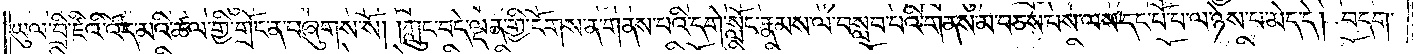ཡུལ་བྲི་ཛིའི་འོད་མའི་ཚལ་གྱི་གྲོང་ན་བཞུགས་སོ། །ཀླུང་བདེ་ལྡན་གྱི་ངོགས་ན་གནས་པའི་དགེ་སློང་རྣམས་ལ་བསླབ་པའི་གནས་མ་བཅས་པས་ལས་དང་པོ་པ་ལ་ཉེས་པ་མེད་དེ། བདག་
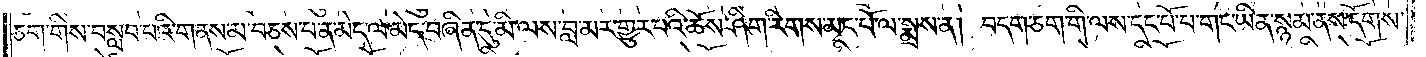ཅག་གིས་བསླབ་པའི་གནས་མ་བཅས་པ་ན་མེད་ལ་མེད་བཞིན་དུ་མི་ལས་བླ་མར་གྱུར་པའི་ཆོས་ཤིག་རིགས་མང་པོ་ལ་སྨྲས་ན། བདག་ཅག་གི་ལས་དང་པོ་པ་གང་ཡིན་སྙམ་ནས་དོགས་
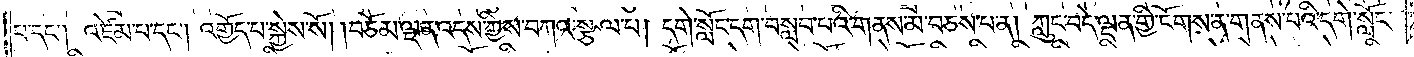པ་དང༌། འཛེམ་པ་དང༌། འགྱོད་པ་སྐྱེས་སོ། །བཅོམ་ལྡན་འདས་ཀྱིས་བཀའ་སྩལ་པ། དགེ་སློང་དག་བསླབ་པའི་གནས་མ་བཅས་པ་ན། ཀླུང་བདེ་ལྡན་གྱི་ངོགས་ན་གནས་པའི་དགེ་སློང་
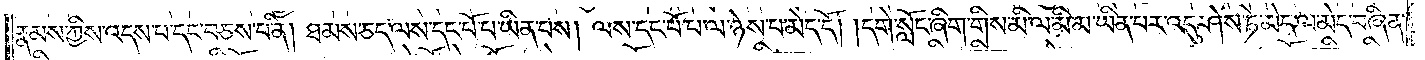རྣམས་ཀྱིས་འདས་པ་དང་བཅས་པ་ནི། ཐམས་ཅད་ལས་དང་པོ་པ་ཡིན་པས། ལས་དང་པོ་པ་ལ་ཉེས་པ་མེད་དོ། །དགེ་སློང་ཞིག་གིས་མི་ལ་མི་མ་ཡིན་པར་འདུ་ཤེས་ཏེ་མེད་ལ་མེད་བཞིན་
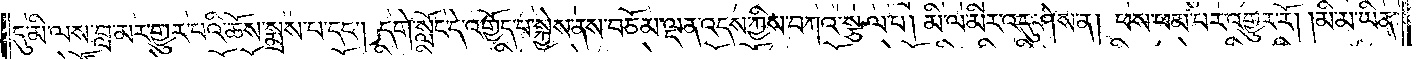དུ་མི་ལས་བླ་མར་གྱུར་པའི་ཆོས་སྨྲས་པ་དང༌། དགེ་སློང་དེ་འགྱོད་པ་སྐྱེས་ནས་བཅོམ་ལྡན་འདས་ཀྱིས་བཀའ་སྩལ་པ། མི་ལ་མིར་འདུ་ཤེས་ན། ཕས་ཕམ་པར་འགྱུར་རོ། །མི་མ་ཡིན་
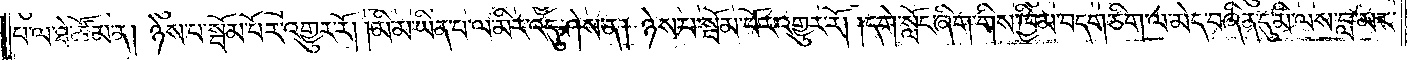པ་ལ་ཐེ་ཚོམ་ན། ཉེས་པ་སྦོམ་པོར་འགྱུར་རོ། །མི་མ་ཡིན་པ་ལ་མིར་འདུ་ཤེས་ན། ཉེས་པ་སྦོམ་པོར་འགྱུར་རོ། །དགེ་སློང་ཞིག་གིས་ཁྱིམ་བདག་ཅིག་ལ་མེད་བཞིན་དུ་མི་ལས་བླ་མར་
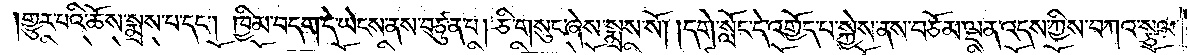གྱུར་པའི་ཆོས་སྨྲས་པ་དང༌། ཁྱིམ་བདག་དེ་ཡེངས་ནས་བཙུན་པ། ཅི་གསུང་ཞེས་སྨྲས་སོ། །དགེ་སློང་དེ་འགྱོད་པ་སྐྱེས་ནས་བཅོམ་ལྡན་འདས་ཀྱིས་བཀའ་སྩལ་
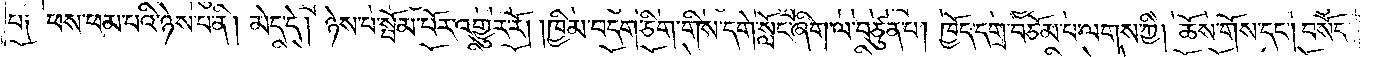པ༑ ཕས་ཕམ་པའི་ཉེས་པ་ནི། མེད་དེ། ཉེས་པ་སྦོམ་པོར་འགྱུར་རོ། །ཁྱིམ་བདག་ཅིག་གིས་དགེ་སློང་ཞིག་ལ་བཙུན་པ། ཁྱོད་དགྲ་བཅོམ་པ་ལགས་ཀྱི། ཆོས་གོས་དང༌། བསོད་
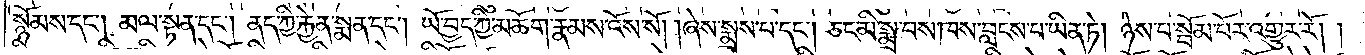སྙོམས་དང༌། མལ་སྟན་དང༌། ནད་ཀྱི་རྐྱེན་སྨན་དང༌། ཡོ་བྱད་ཀྱི་མཆོག་རྣམས་འོས་སོ། །ཞེས་སྨྲས་པ་དང༌། ཅང་མི་སྨྲ་བས་ཁས་བླངས་པ་ཡིན་ཏེ། ཉེས་པ་སྦོམ་པོར་འགྱུར་རོ། །
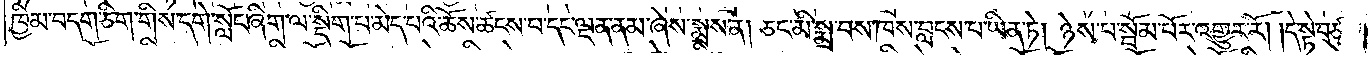ཁྱིམ་བདག་ཅིག་གིས་དགེ་སློང་ཞིག་ལ་སྡིག་པ་མེད་པའི་ཆོས་ཚངས་པ་དང་ལྡན་ནམ་ཞེས་སྨྲས་ན། ཅང་མི་སྨྲ་བས་ཁས་བླངས་པ་ཡིན་ཏེ། ཉེས་པ་སྦོམ་པོར་འགྱུར་རོ།  དེ་སྟེ་བཙུན་
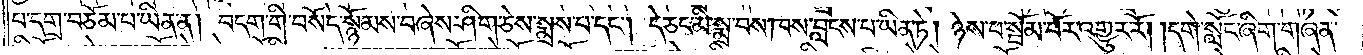པ་དགྲ་བཅོམ་པ་ཡིན་ན། བདག་གི་བསོད་སྙོམས་བཞེས་ཤིག་ཅེས་སྨྲས་པ་དང༌། དེ་ཅང་མི་སྨྲ་བས་ཁས་བླངས་པ་ཡིན་ཏེ། ཉེས་པ་སྦོམ་པོར་འགྱུར་རོ། །དགེ་སློང་ཞིག་གཞན་
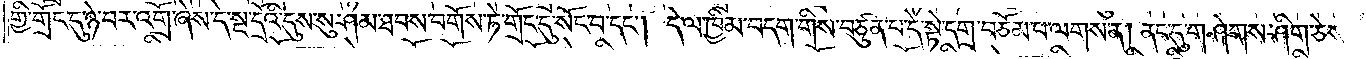གྱི་གྲོང་དུ་ཉེ་བར་འགྲོ་ཞེས་དེ་སྔ་དྲོའི་དུས་སུ་ཤམ་ཐབས་བགོས་ཏེ་གྲོང་དུ་སོང་བ་དང༌། དེ་ལ་ཁྱིམ་བདག་གིས་བཙུན་པ་དེ་སྟེ་དགྲ་བཅོམ་པ་ལགས་ན། ནང་དུ་གཤེགས་ཤིག་ཅེས་
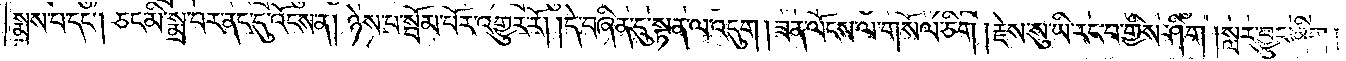སྨྲས་པ་དང༌། ཅང་མི་སྨྲ་བར་ནང་དུ་འོངས་ན། ཉེས་པ་སྦོམ་པོར་འགྱུར་རོ། །དེ་བཞིན་དུ་སྟན་ལ་འདུག །ཟན་ལོངས་ལ་གསོལ་ཅིག །རྗེས་སུ་ཡི་རང་བ་གྱིས་ཤིག །སླར་བྱུང་ཞིག །
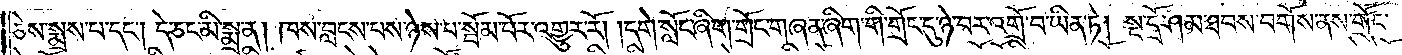ཅེས་སྨྲས་པ་དང༌། དེ་ཅང་མི་སྨྲ་ན། ཁས་བླངས་པས་ཉེས་པ་སྦོམ་པོར་འགྱུར་རོ། །དགེ་སློང་ཞིག་གྲོང་གཞན་ཞིག་གི་གྲོང་དུ་ཉེ་བར་འགྲོ་བ་ཡིན་ཏེ། སྔ་དྲོ་ཤམ་ཐབས་བགོས་ནས་གྲོང་
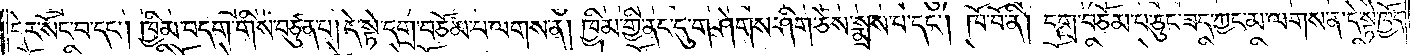དེར་སོང་བ་དང༌། ཁྱིམ་བདག་གིས་བཙུན་པ། དེ་སྟེ་དགྲ་བཅོམ་པ་ལགས་ན། ཁྱིམ་གྱི་ནང་དུ་གཤེགས་ཤིག་ཅེས་སྨྲས་པ་དང༌། ཁོ་བོ་ནི། དགྲ་བཅོམ་པ་ཅུང་ཟད་ཀྱང་མ་ལགས་ན་དེ་སྟེ་ཁྱོད་
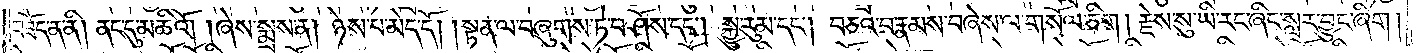བཟོད་ན་ནི། ནང་དུ་མཆིའོ། །ཞེས་སྨྲས་ན། ཉེས་པ་མེད་དོ། །སྟན་ལ་བཞུགས་ཏེ་བཤོས་དང༌། སྐྱུ་རུམ་དང༌། བཅའ་བ་རྣམས་བཞེས་ལ་གསོལ་ཅིག། རྗེས་སུ་ཡི་རང་ཞིང་སླར་བྱུང་ཞིག། །
